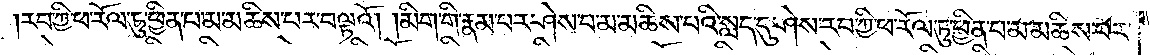རབ་ཀྱི་ཕ་རོལ་ཏུ་ཕྱིན་པ་མ་མཆིས་པར་བལྟའོ། །མིག་གི་རྣམ་པར་ཤེས་པ་མ་མཆིས་པའི་སླད་དུ་ཤེས་རབ་ཀྱི་ཕ་རོལ་ཏུ་ཕྱིན་པ་མ་མཆིས་པར་
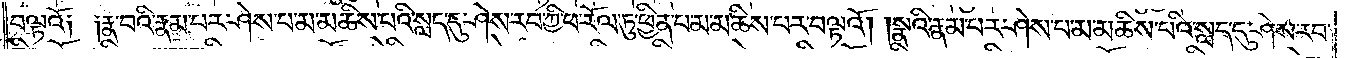བལྟའོ༑ ༑རྣ་བའི་རྣམ་པར་ཤེས་པ་མ་མཆིས་པའི་སླད་དུ་ཤེས་རབ་ཀྱི་ཕ་རོལ་ཏུ་ཕྱིན་པ་མ་མཆིས་པར་བལྟའོ། །སྣའི་རྣམ་པར་ཤེས་པ་མ་མཆིས་པའི་སླད་དུ་ཤེས་རབ་
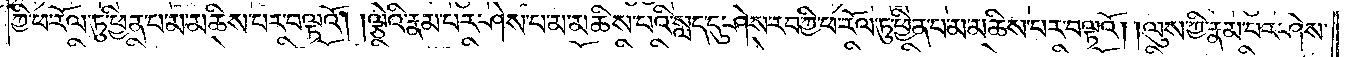ཀྱི་ཕ་རོལ་ཏུ་ཕྱིན་པ་མ་མཆིས་པར་བལྟའོ། །ལྕེའི་རྣམ་པར་ཤེས་པ་མ་མཆིས་པའི་སླད་དུ་ཤེས་རབ་ཀྱི་ཕ་རོལ་ཏུ་ཕྱིན་པ་མ་མཆིས་པར་བལྟའོ། །ལུས་ཀྱི་རྣམ་པར་ཤེས་
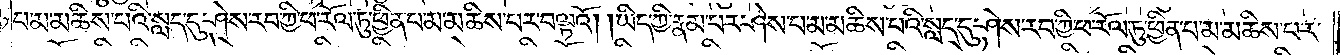པ་མ་མཆིས་པའི་སླད་དུ་ཤེས་རབ་ཀྱི་ཕ་རོལ་ཏུ་ཕྱིན་པ་མ་མཆིས་པར་བལྟའོ། །ཡིད་ཀྱི་རྣམ་པར་ཤེས་པ་མ་མཆིས་པའི་སླད་དུ་ཤེས་རབ་ཀྱི་ཕ་རོལ་ཏུ་ཕྱིན་པ་མ་མཆིས་པར་
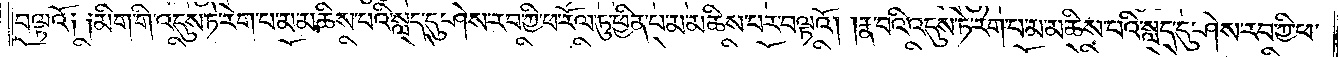བལྟའོ༑ ༑མིག་གི་འདུས་ཏེ་རེག་པ་མ་མཆིས་པའི་སླད་དུ་ཤེས་རབ་ཀྱི་ཕ་རོལ་ཏུ་ཕྱིན་པ་མ་མཆིས་པར་བལྟའོ། །རྣ་བའི་འདུས་ཏེ་རེག་པ་མ་མཆིས་པའི་སླད་དུ་ཤེས་རབ་ཀྱི་ཕ་
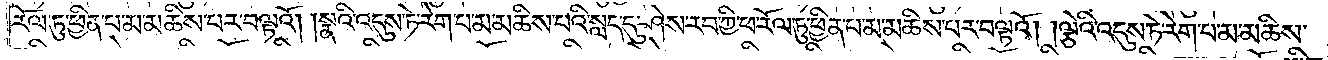རོལ་ཏུ་ཕྱིན་པ་མ་མཆིས་པར་བལྟའོ། །སྣའི་འདུས་ཏེ་རེག་པ་མ་མཆིས་པའི་སླད་དུ་ཤེས་རབ་ཀྱི་ཕ་རོལ་ཏུ་ཕྱིན་པ་མ་མཆིས་པར་བལྟའོ། །ལྕེའི་འདུས་ཏེ་རེག་པ་མ་མཆིས་
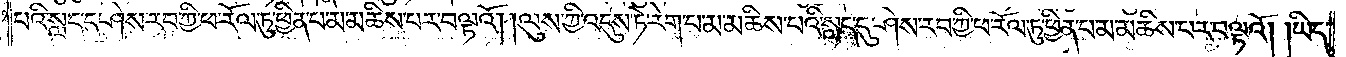པའི་སླད་དུ་ཤེས་རབ་ཀྱི་ཕ་རོལ་ཏུ་ཕྱིན་པ་མ་མཆིས་པར་བལྟའོ། །ལུས་ཀྱི་འདུས་ཏེ་རེག་པ་མ་མཆིས་པའི་སླད་དུ་ཤེས་རབ་ཀྱི་ཕ་རོལ་ཏུ་ཕྱིན་པ་མ་མཆིས་པར་བལྟའོ། །ཡིད་
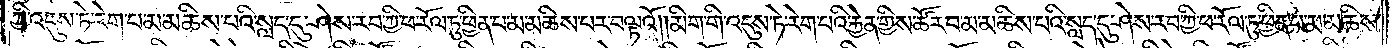ཀྱི་འདུས་ཏེ་རེག་པ་མ་མཆིས་པའི་སླད་དུ་ཤེས་རབ་ཀྱི་ཕ་རོལ་ཏུ་ཕྱིན་པ་མ་མཆིས་པར་བལྟའོ། །མིག་གི་འདུས་ཏེ་རེག་པའི་རྐྱེན་གྱིས་ཚོར་བ་མ་མཆིས་པའི་སླད་དུ་ཤེས་རབ་ཀྱི་ཕ་རོལ་ཏུ་ཕྱིན་པ་མ་མཆིས་
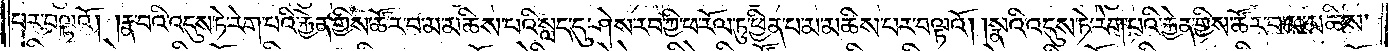པར་བལྟའོ། །རྣ་བའི་འདུས་ཏེ་རེག་པའི་རྐྱེན་གྱིས་ཚོར་བ་མ་མཆིས་པའི་སླད་དུ་ཤེས་རབ་ཀྱི་ཕ་རོལ་ཏུ་ཕྱིན་པ་མ་མཆིས་པར་བལྟའོ། །སྣའི་འདུས་ཏེ་རེག་པའི་རྐྱེན་གྱིས་ཚོར་བ་མ་མཆིས་
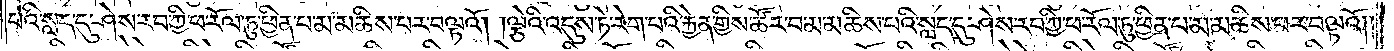པའི་སླད་དུ་ཤེས་རབ་ཀྱི་ཕ་རོལ་ཏུ་ཕྱིན་པ་མ་མཆིས་པར་བལྟའོ། །ལྕེའི་འདུས་ཏེ་རེག་པའི་རྐྱེན་གྱིས་ཚོར་བ་མ་མཆིས་པའི་སླད་དུ་ཤེས་རབ་ཀྱི་ཕ་རོལ་ཏུ་ཕྱིན་པ་མ་མཆིས་པར་བལྟའོ༎
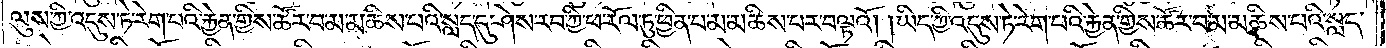ལུས་ཀྱི་འདུས་ཏེ་རེག་པའི་རྐྱེན་གྱིས་ཚོར་བ་མ་མཆིས་པའི་སླད་དུ་ཤེས་རབ་ཀྱི་ཕ་རོལ་ཏུ་ཕྱིན་པ་མ་མཆིས་པར་བལྟའོ། །ཡིད་ཀྱི་འདུས་ཏེ་རེག་པའི་རྐྱེན་གྱིས་ཚོར་བ་མ་མཆིས་པའི་སླད་
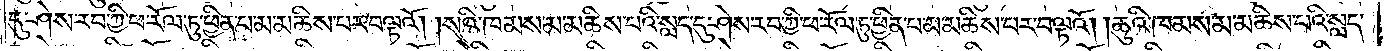དུ་ཤེས་རབ་ཀྱི་ཕ་རོལ་ཏུ་ཕྱིན་པ་མ་མཆིས་པར་བལྟའོ། །སའི་ཁམས་མ་མཆིས་པའི་སླད་དུ་ཤེས་རབ་ཀྱི་ཕ་རོལ་ཏུ་ཕྱིན་པ་མ་མཆིས་པར་བལྟའོ། །ཆུའི་ཁམས་མ་མཆིས་པའི་སླད་
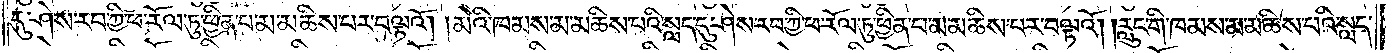དུ་ཤེས་རབ་ཀྱི་ཕ་རོལ་ཏུ་ཕྱིན་པ་མ་མཆིས་པར་བལྟའོ། །མེའི་ཁམས་མ་མཆིས་པའི་སླད་དུ་ཤེས་རབ་ཀྱི་ཕ་རོལ་ཏུ་ཕྱིན་པ་མ་མཆིས་པར་བལྟའོ། །རླུང་གི་ཁམས་མ་མཆིས་པའི་སླད་
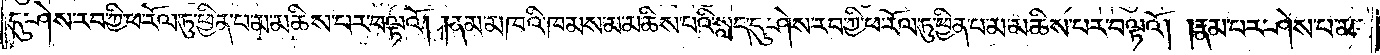དུ་ཤེས་རབ་ཀྱི་ཕ་རོལ་ཏུ་ཕྱིན་པ་མ་མཆིས་པར་བལྟའོ། །ནམ་མཁའི་ཁམས་མ་མཆིས་པའི་སླད་དུ་ཤེས་རབ་ཀྱི་ཕ་རོལ་ཏུ་ཕྱིན་པ་མ་མཆིས་པར་བལྟའོ། །རྣམ་པར་ཤེས་པ་མ་
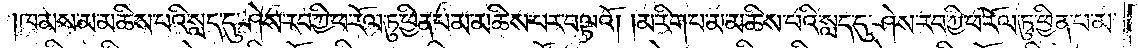ཁམས་མ་མཆིས་པའི་སླད་དུ་ཤེས་རབ་ཀྱི་ཕ་རོལ་ཏུ་ཕྱིན་པ་མ་མཆིས་པར་བལྟའོ། །མ་རིག་པ་མ་མཆིས་པའི་སླད་དུ་ཤེས་རབ་ཀྱི་ཕ་རོལ་ཏུ་ཕྱིན་པ་མ་
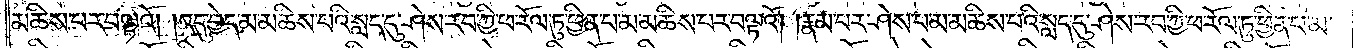མཆིས་པར་བལྟའོ། །འདུ་བྱེད་མ་མཆིས་པའི་སླད་དུ་ཤེས་རབ་ཀྱི་ཕ་རོལ་ཏུ་ཕྱིན་པ་མ་མཆིས་པར་བལྟའོ། །རྣམ་པར་ཤེས་པ་མ་མཆིས་པའི་སླད་དུ་ཤེས་རབ་ཀྱི་ཕ་རོལ་ཏུ་ཕྱིན་པ་མ་
